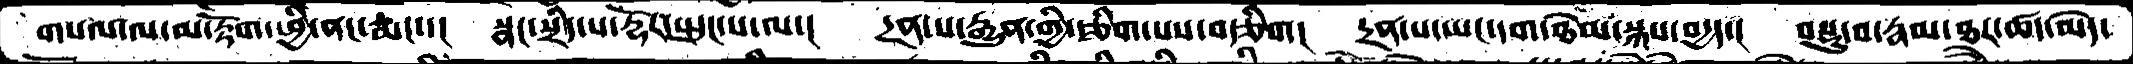གསལ་ལ་མ་རྟོག་ཕྱི་ནང་རྨང་་།  སྣང་སྲིད་པ་རྡོར་སྤུང་པ་ལ་།  དྲན་པ་རྒྱུན་གྱི་རྩིག་པས་བརྩིག།  དྲན་པ་ཡང་དག་ཐེམ་སྐས་བདྱད་།  བསྡུ་བ་རྣམ་ཐར་ཚད་མེད་
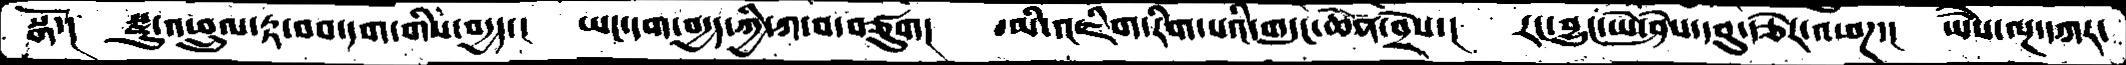སྒོ་།  སྫུ་འཕྲུལ་རྟ་བབ་དག་གིས་བདྱད་།  ཡང་དག་བདྱད་ཀྱི་ཀ་བ་བཙུག།  མི་འཇིག་རིག་པའི་གདུང་ཆེན་བྲེས་།  རང་བྱུང་ཡེ་ཤེས་དབུ་རྩེར་འཕཌ་།  ཡཻས་ལྔ་དཀར་
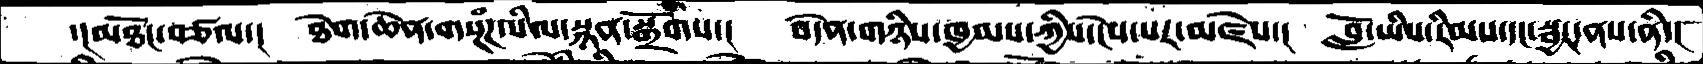་།མཐོང་བཙལ་།   ཐེག་ཆེན་གསྔཾཌ་སིལ་སྙན་སྒྲོགས་།  བདེན་གཉིས་ཁྱམས་ཀྱིས་ངེས་པར་མཛེས་།  བློ་ཡིས་རིམས་དང་སྦྱར་ནས་ནི་།
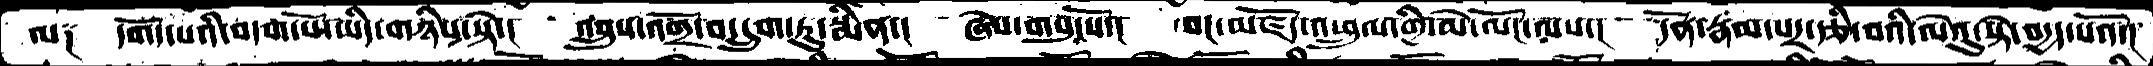ལ༑  དགོད་པའི་བདག་པོ་ཡིད་གཉིས་སྟེ་།  འབྲུས་འགྲོ་བ་དྲུག་ཏུ་སྨིན་།  ཞེས་གསུངསོ་།  བང་མཛོད་འཕྲུལ་གྱི་མེ་ལོང་ལས་།  དོན་རྣམ་པར་རྩི་བའི་ལེའུ་སྟེ་བདྱད་པའོ་།
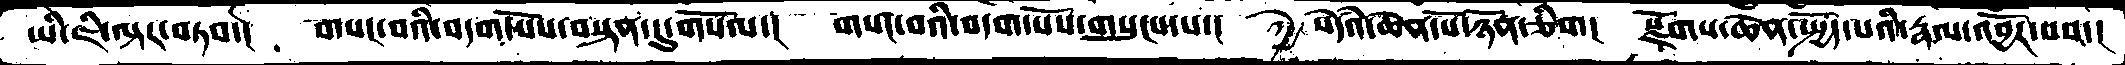ཡི་ཇི་ལྟར་བཏབ་།  གསང་བའི་བདག་པོས་བསྟན་དུ་གསོལ་།  གསང་བའི་བདག་པོས་གསུངས་པ་།  ཀྱེ སེདཾའ་ཆེན་པོ་ཉོན་ཅིག་།  སྫོགས་ཆེན་སྤྱོད་པའི་རྣལ་འབྱོར་པས་།
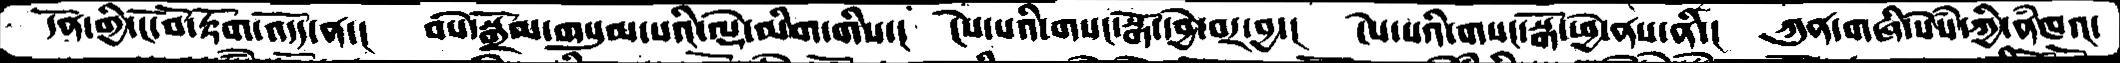དོན་གྱི་ངོ་བོ་རྟོག་འདོད་ན་།  བསེ་སྒྲོམ་གསུམ་པའི་ལྡེ་མིག་གིས་།  ངེས་པའི་གསང་སྒོ་དབྱེ་བར་བྱ་།  ངེས་པའི་གསང་སྒོ་ཕྱེ་ནས་ནི་།  ཀུན་གཞི་སེསཾ་ཀྱི་ནཾཁའ་
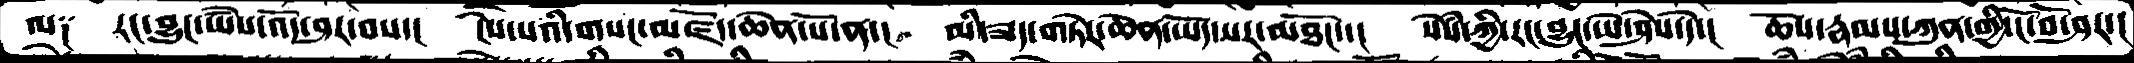ལ༑  རང་་བྱུང་ཡཻས་འོད་ཤར་བས་།  ངེས་པའི་གསང་མཛོད་ཆེན་པོ་ན་།  མི་ཟད་གཏེར་ཆེན་ཡོད་པར་མཐོང་།  སེསཾ་ཀྱི་རང་བྱུང་ཡེ་ཤེས་དེ་།  ཆོས་རྣམས་ཀུན་གྱི་ངོ་བོ་ཤར་།
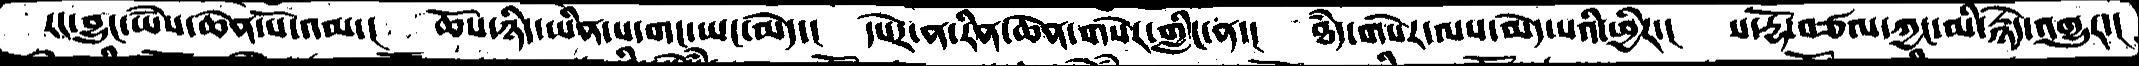རང་བྱུང་ཡཻས་ཆེན་པོ་འམ་།  ཆོས་ཉིད་ཡིན་པ་གང་ཡང་མེད་།  དཔེར་ན་རིན་ཆེན་གསེར་གླིང་ན་།  ཐདཾ་གསེར་ལས་མེད་པའི་ཕྱིར་།  ས་རྡོ་བཙལ་ཀྱང་མི་རྙེད་འགྱུར་།
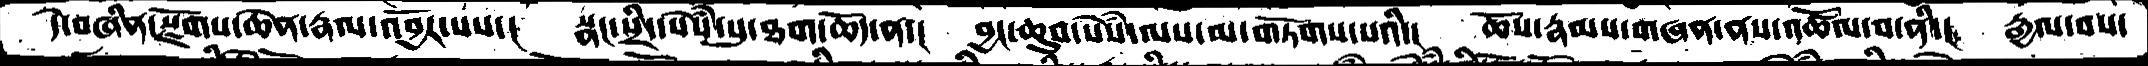དེ་བཞིན་སྫོགས་ཆེན་རྣལ་འབྱོར་པས་།  སྣང་སྲིད་སེཾས་སུ་ཐག་ཆོད་ན་།  བྱང་ཆུབ་སེཾས་ལས་མ་གཏོགས་པའི་།  ཆོས་རྣམས་གཞན་ནས་འཚོལ་བ་ནི་།  རྒྱལ་བས་
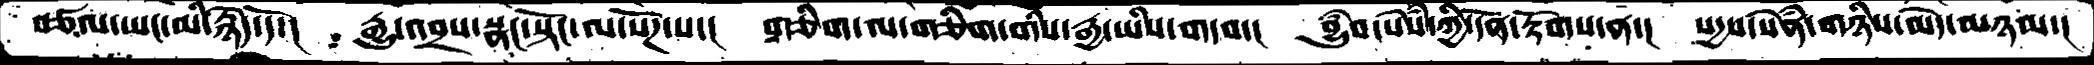བཙལ་ཡང་མི་རྙེད་དོ་།   རྒྱུ་འབྲས་སྣང་སྟོང་ལ་སོཌ་པ་།  གཅིག་ལ་གཅིག་གིས་རྒྱ་ཡིས་གདབ་།  བྱུཾབ་སེཾས་ཀྱི་དོན་རྟོགས་ན་།  སདྱས་སེཾན་གཉིས་མེད་མཉམ་།
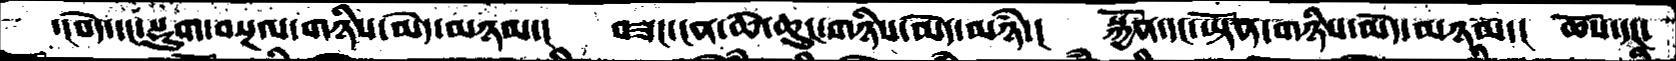་།བདེ་དང་སྡུག་བསྔལ་གཉིས་མེད་མཉམ་།  བཟང་ངན་ཆེ་ཆུང་གཉིས་མེད་མཉཾ་།  སྐྱོན་དང་ཡྟོན་གཉིས་མེད་མཉམ་།  ཆོས་དང་
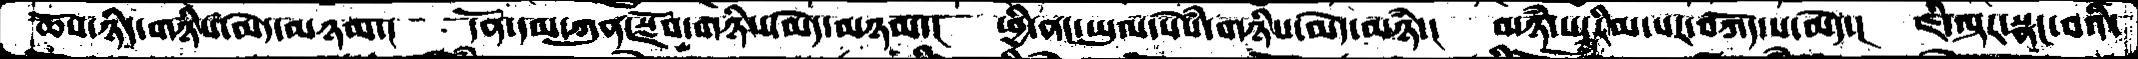ཆོས་ཉིད་གཉིས་མེད་མཉམ་།  དོན་དམ་ཀུན་སྫོབ་གཉིས་མེད་མཉམ་།  ཕྱི་ནང་ཡུལ་སེཾས་གཉིས་མེདམཉཾ་།  མཉཾ་པ་རིམ་པར་བཀོད་པ་མེད་།  ཇི་ལྟར་སྣང་བའི་
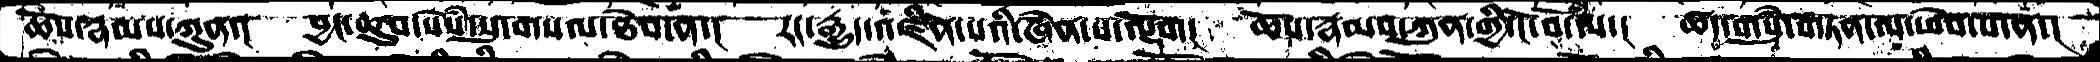ཆོས་རྣམས་ཀུན་།  བྱང་ཆུབ་སེཾས་སུ་གསལ་ཐེབ་ན་།  རང་རྒྱུད་འཛིན་པའི་ཞེན་པ་ལྡོག།  ཆོས་རྣམས་ཀུན་གྱི་ངོ་བོ་ལ་།  ཚད་གསུཾ་གཏན་ལ་ཕེབ་པ་ན་།
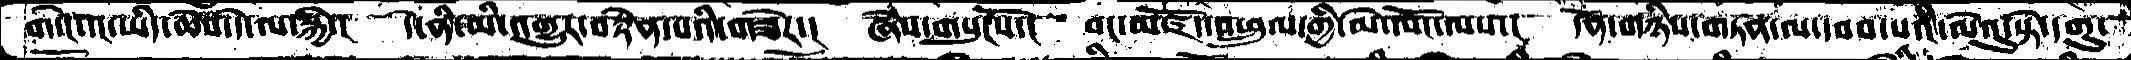གདེང་དང་ཡིད་ཆེས་དེ་ལ་སྐྱེ་།  དེ་ནི་མི་འགྱུར་བརྟེན་པའི་གཟེར་།  ཞེས་གསུངསོ་།  བང་མཛོད་འཕྲུལ་གྱི་མེ་ལོང་ལས་།  དོན་གཉིས་གཏན་ལ་དབབ་པའི་ལེའུ་སྟེ་དགུ་
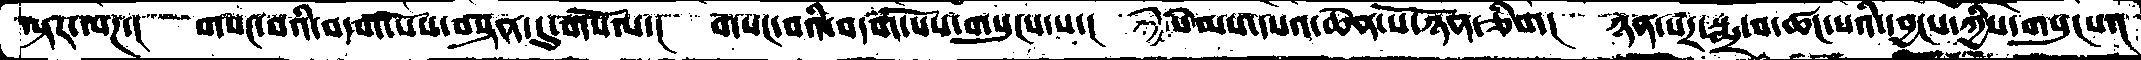ལྟར་ལཌ་།  གསང་བའི་བདག་པོས་བསྟན་དུ་གསོལ་།  གསང་བའི་བདག་པོས་གསུངས་པ་།  ཀྱེ་སེམས་དཔའ་ཆེན་པོ་ཉོན་ཅིག།  ཉན་པར་སྨྲ་བ་ཚང་པའི་དབྱངས་ཀྱིས་གསུངས་།
